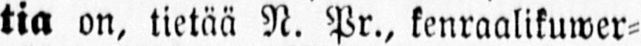tia on, tietää N. Pr., kenraalikuwer-
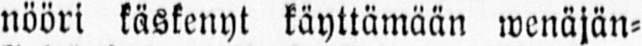nööri käskenyt käyttämään wenäjän-
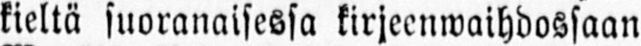kieltä suoranaisessa kirjeenwaihdossaan
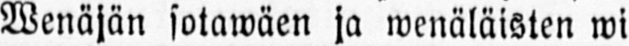Wenäjän sotawäen ja wenäläisten wi-
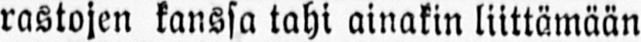rastojen kanssa tahi ainakin liittämään
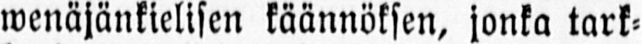wenäjänkielisen käännöksen, jonka tark-
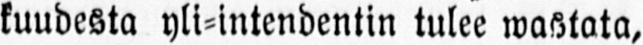kuudesta yli-intendentin tulee wastata,
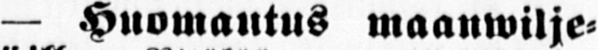— Huomautus maanwilje-
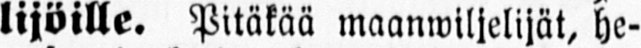lijöille. Pitäkää maanwiljelijät, he-
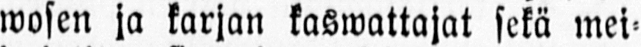wosen ja karjan kaswattajat sekä mei-
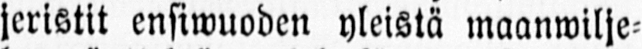jeristit ensiwuoden yleistä maanwilje-
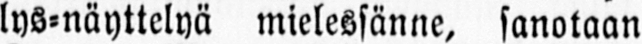lys-näyttelyä mielessänne, sanotaan
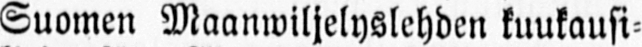Suomen Maanwiljelyslehden kuukausi-
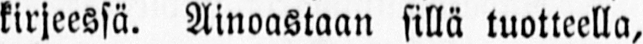kirjeessä. Ainoastaan sillä tuotteella,
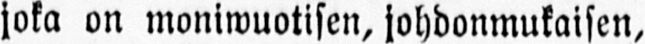joka on moniwuotisen, johdonmukaisen,
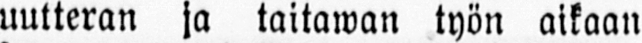uutteran ja taitawan työn aikaan
